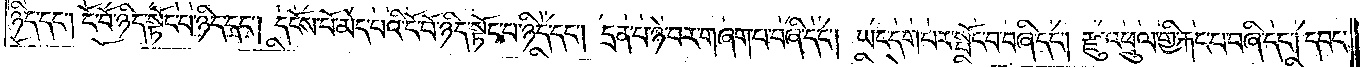ཉིད་དང༌། ངོ་བོ་ཉིད་སྟོང་པ་ཉིད་དང༌། དངོས་པོ་མེད་པའི་ངོ་བོ་ཉིད་སྟོང་པ་ཉིད་དང༌། དྲན་པ་ཉེ་བར་གཞག་པ་བཞི་དང༌། ཡང་དག་པར་སྤོང་བ་བཞི་དང༌། རྫུ་འཕྲུལ་གྱི་རྐང་པ་བཞི་དང༌། དབང་
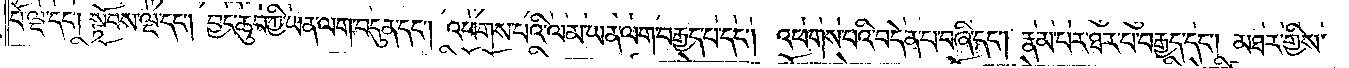པོ་ལྔ་དང༌། སྟོབས་ལྔ་དང༌། བྱང་ཆུབ་ཀྱི་ཡན་ལག་བདུན་དང༌། འཕགས་པའི་ལམ་ཡན་ལག་བརྒྱད་པ་དང༌། འཕགས་པའི་བདེན་པ་བཞི་དང༌། རྣམ་པར་ཐར་པ་བརྒྱད་དང༌། མཐར་གྱིས་
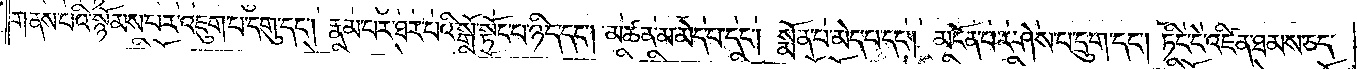གནས་པའི་སྙོམས་པར་འཇུག་པ་དགུ་དང༌། རྣམ་པར་ཐར་པའི་སྒོ་སྟོང་པ་ཉིད་དང༌། མཚན་མ་མེད་པ་དང༌། སྨོན་པ་མེད་པ་དང༌། མངོན་པར་ཤེས་པ་དྲུག་དང༌། ཏིང་ངེ་འཛིན་ཐམས་ཅད་
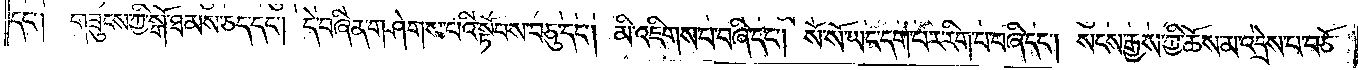དང༌། གཟུངས་ཀྱི་སྒོ་ཐམས་ཅད་དང༌། དེ་བཞིན་གཤེགས་པའི་སྟོབས་བཅུ་དང༌། མི་འཇིགས་པ་བཞི་དང༌། སོ་སོ་ཡང་དག་པར་རིག་པ་བཞི་དང༌། སངས་རྒྱས་ཀྱི་ཆོས་མ་འདྲེས་པ་བཅོ་
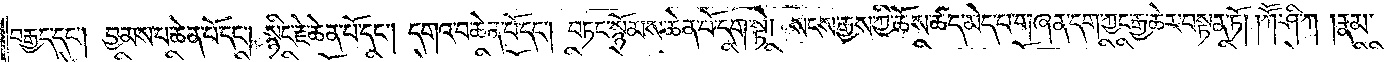བརྒྱད་དང༌། བྱམས་པ་ཆེན་པོ་དང༌། སྙིང་རྗེ་ཆེན་པོ་དང༌། དགའ་བ་ཆེན་པོ་དང༌། བཏང་སྙོམས་ཆེན་པོ་དག་སྟེ། སངས་རྒྱས་ཀྱི་ཆོས་ཚད་མེད་པ་གཞན་དག་ཀྱང་རྒྱ་ཆེར་བསྟན་ཏོ། །ཀཽ་ཤི་ཀ །རྣམ་
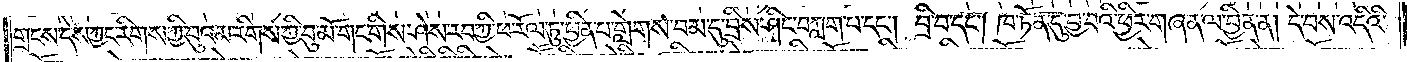གྲངས་དེས་ཀྱང་རིགས་ཀྱི་བུའམ་རིགས་ཀྱི་བུ་མོ་གང་གིས་ཤེས་རབ་ཀྱི་ཕ་རོལ་ཏུ་ཕྱིན་པ་གླེགས་བམ་དུ་བྲིས་ཤིང་བཀླག་པ་དང༌། བྲི་བ་དང༌། ཁ་ཏོན་དུ་བྱ་བའི་ཕྱིར་གཞན་ལ་བྱིན་ན། དེ་བས་འདིའི་
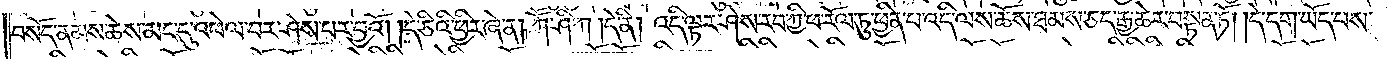བསོད་ནམས་ཆེས་མང་དུ་འཕེལ་བར་ཤེས་པར་བྱའོ། །དེ་ཅིའི་ཕྱིར་ཞེ་ན། ཀཽ་ཤི་ཀ །དེ་ནི། འདི་ལྟར་ཤེས་རབ་ཀྱི་ཕ་རོལ་ཏུ་ཕྱིན་པ་འདི་ལས་ཆོས་ཐམས་ཅད་རྒྱ་ཆེར་བསྟན་ཏོ། །དེ་དག་ཡོད་པས་
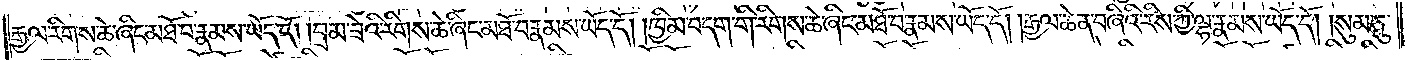རྒྱལ་རིགས་ཆེ་ཞིང་མཐོ་བ་རྣམས་ཡོད་དོ། །བྲམ་ཟེའི་རིགས་ཆེ་ཞིང་མཐོ་བ་རྣམས་ཡོད་དོ། །ཁྱིམ་བདག་གི་རིགས་ཆེ་ཞིང་མཐོ་བ་རྣམས་ཡོད་དོ། །རྒྱལ་ཆེན་བཞིའི་རིས་ཀྱི་ལྷ་རྣམས་ཡོད་དོ། །སུམ་ཅུ་
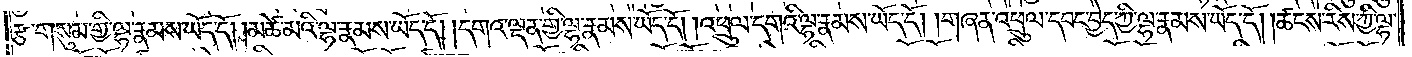རྩ་གསུམ་གྱི་ལྷ་རྣམས་ཡོད་དོ། །མཚེ་མའི་ལྷ་རྣམས་ཡོད་དོ། །དགའ་ལྡན་གྱི་ལྷ་རྣམས་ཡོད་དོ། འཕྲུལ་དགའི་ལྷ་རྣམས་ཡོད་དོ། །གཞན་འཕྲུལ་དབང་བྱེད་ཀྱི་ལྷ་རྣམས་ཡོད་དོ། །ཚངས་རིས་ཀྱི་ལྷ་
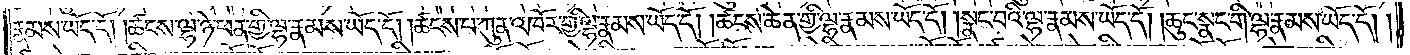རྣམས་ཡོད་དོ། །ཚངས་ལྷ་ཉེ་ཕན་གྱི་ལྷ་རྣམས་ཡོད་དོ། །ཚངས་པ་ཀུན་འཁོར་གྱི་ལྷ་རྣམས་ཡོད་དོ། །ཚངས་ཆེན་གྱི་ལྷ་རྣམས་ཡོད་དོ། །སྣང་བའི་ལྷ་རྣམས་ཡོད་དོ། །ཆུང་སྣང་གི་ལྷ་རྣམས་ཡོད་དོ༎
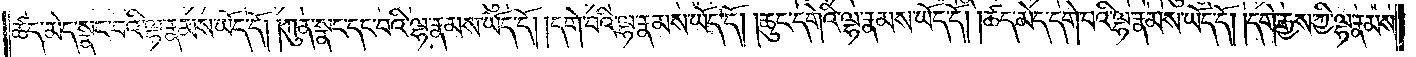ཚད་མེད་སྣང་བའི་ལྷ་རྣམས་ཡོད་དོ། །ཀུན་སྣང་དང་བའི་ལྷ་རྣམས་ཡོད་དོ། །དགེ་བའི་ལྷ་རྣམས་ཡོད་དོ། །ཆུང་དགེའི་ལྷ་རྣམས་ཡོད་དོ། །ཚད་མེད་དགེ་བའི་ལྷ་རྣམས་ཡོད་དོ། །དགེ་རྒྱས་ཀྱི་ལྷ་རྣམས་
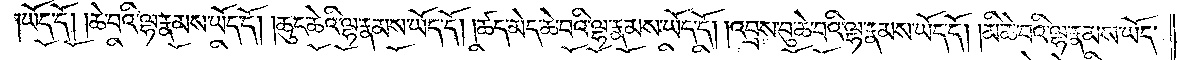ཡོད་དོ། །ཆེ་བའི་ལྷ་རྣམས་ཡོད་དོ། །ཆུང་ཆེའི་ལྷ་རྣམས་ཡོད་དོ། །ཚད་མེད་ཆེ་བའི་ལྷ་རྣམས་ཡོད་དོ། །འབྲས་བུ་ཆེ་བའི་ལྷ་རྣམས་ཡོད་དོ། །མི་ཆེ་བའི་ལྷ་རྣམས་ཡོད་
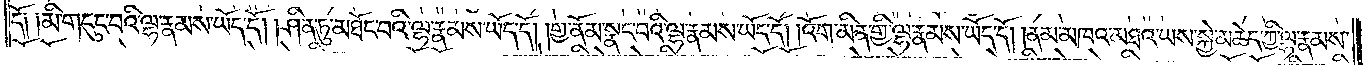དོ༑ ༑མི་གདུང་པའི་ལྷ་རྣམས་ཡོད་དོ། །ཤིན་ཏུ་མཐོང་བའི་ལྷ་རྣམས་ཡོད་དོ། །གྱ་ནོམ་སྣང་བའི་ལྷ་རྣམས་ཡོད་དོ། །འོག་མིན་གྱི་ལྷ་རྣམས་ཡོད་དོ། །ནམ་མཁའ་མཐའ་ཡས་སྐྱེ་མཆེད་ཀྱི་ལྷ་རྣམས་
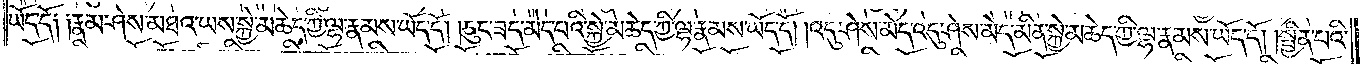ཡོད་དོ༑ ༑རྣམ་ཤེས་མཐའ་ཡས་སྐྱེ་མཆེད་ཀྱི་ལྷ་རྣམས་ཡོད་དོ། །ཅུང་ཟད་མེད་པའི་སྐྱེ་མཆེད་ཀྱི་ལྷ་རྣམས་ཡོད་དོ། །འདུ་ཤེས་མེད་འདུ་ཤེས་མེད་མིན་སྐྱེ་མཆེད་ཀྱི་ལྷ་རྣམས་ཡོད་དོ། །སྦྱིན་པའི་
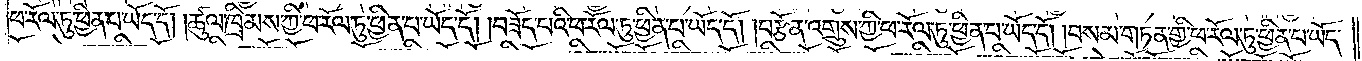ཕ་རོལ་ཏུ་ཕྱིན་པ་ཡོད་དོ། །ཚུལ་ཁྲིམས་ཀྱི་ཕ་རོལ་ཏུ་ཕྱིན་པ་ཡོད་དོ། །བཟོད་པའི་ཕ་རོལ་ཏུ་ཕྱིན་པ་ཡོད་དོ། །བརྩོན་འགྲུས་ཀྱི་ཕ་རོལ་ཏུ་ཕྱིན་པ་ཡོད་དོ། །བསམ་གཏན་གྱི་ཕ་རོལ་ཏུ་ཕྱིན་པ་ཡོད་
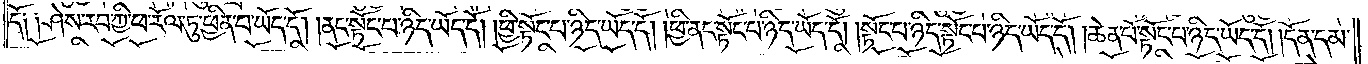དོ༑ ༑ཤེས་རབ་ཀྱི་ཕ་རོལ་ཏུ་ཕྱིན་པ་ཡོད་དོ། །ནང་སྟོང་པ་ཉིད་ཡོད་དོ། །ཕྱི་སྟོང་པ་ཉིད་ཡོད་དོ། །ཕྱི་ནང་སྟོང་པ་ཉིད་ཡོད་དོ། །སྟོང་པ་ཉིད་སྟོང་པ་ཉིད་ཡོད་དོ། །ཆེན་པོ་སྟོང་པ་ཉིད་ཡོད་དོ། །དོན་དམ་
